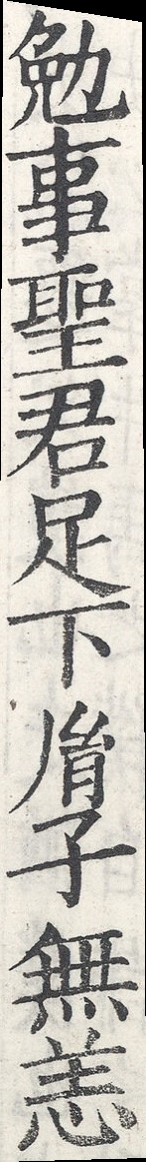勉事聖君足下胤子無恙
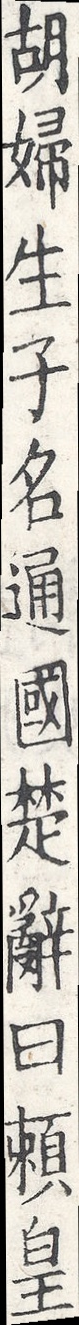胡婦生子名通國楚辭曰賴皇
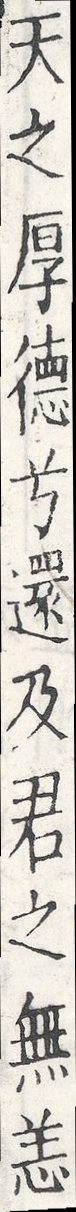天之厚德兮還及君之無恙
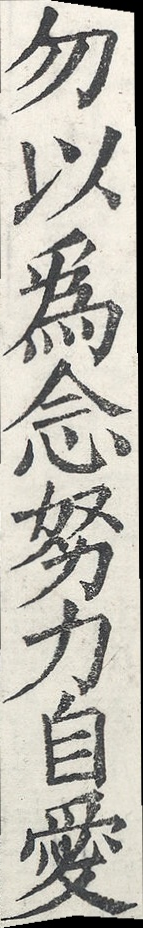勿以為念努力自愛
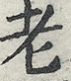老
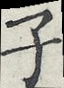子
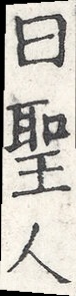曰聖人
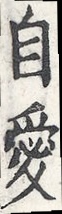自愛
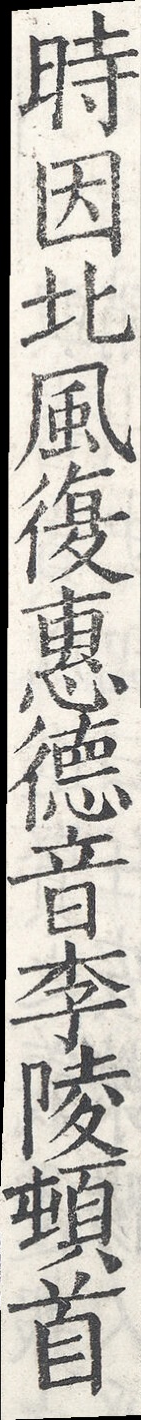時因北風復惠德音李陵頓首
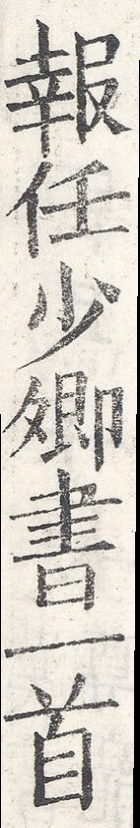報任少卿書一首
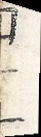四十一
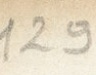129
